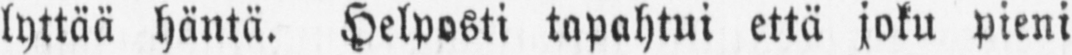lyttää häntä. Helposti tapahtui että joku pieni
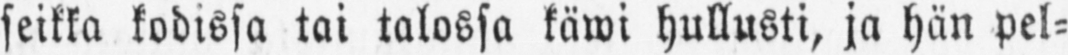seikka kodissa tai talossa käwi hullusti, ja hän pel-
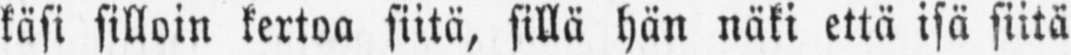käsi silloin kertoa siitä, sillä hän näki että isä siitä
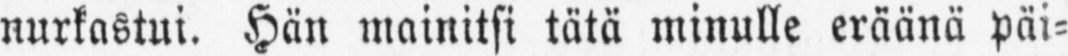nurkastui. Hän mainitsi tätä minulle eräänä päi-
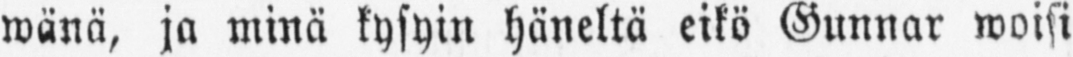wänä, ja minä kysyin häneltä eikö Gunnar woisi
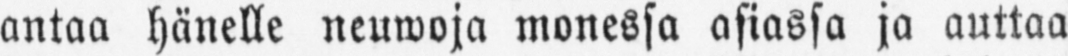antaa hänelle neuwoja monessa asiassa ja auttaa
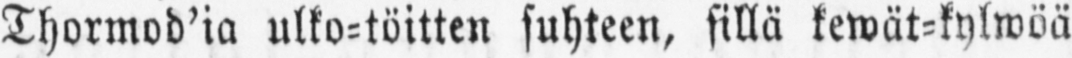Thormod'ia ulko-töitten suhteen, sillä kewät-kylwöä
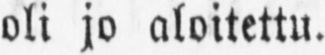oli jo aloitettu.
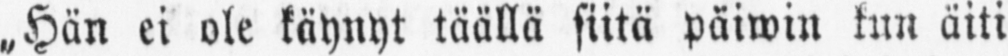„Hän ei ole käynyt täällä siitä päiwin kun äiti
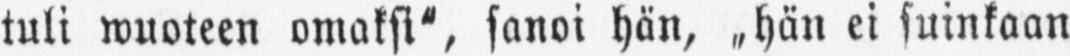tuli wuoteen omaksi", sanoi hän, hän ei suinkaan
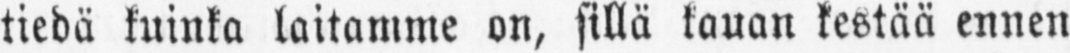tiedä kuinka laitamme on, sillä kauan kestää ennen
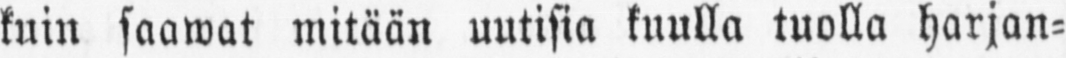kuin saawat mitään uutisia kuulla tuolla harjan-
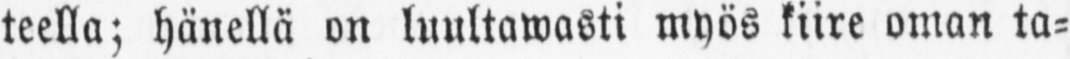teella; hänellä on luultawasti myös kiire oman ta-
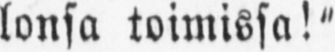lonsa toimissa!"
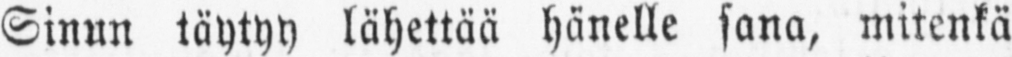Sinun täytyy lähettää hänelle sana, mitenkä
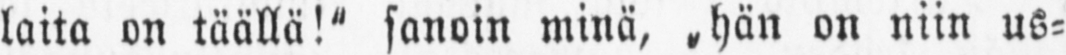laita on täällä!" sanoin minä, ˶hän on niin us-
